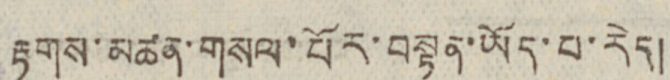རྟགས་མཚན་གསལ་པོར་བསྟན་ཡོད་པ་རེད།
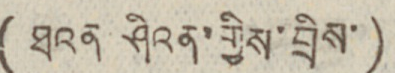(ཐའན ཤིའན་གྱིས་བྲིས་)
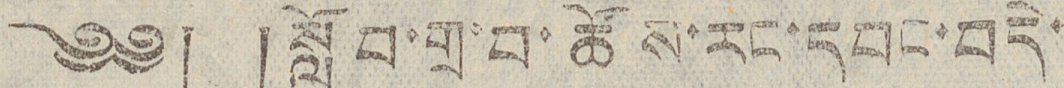༄༅། །སློབ་གྲ་བ་ཚོས་རང་དབང་བདེ་
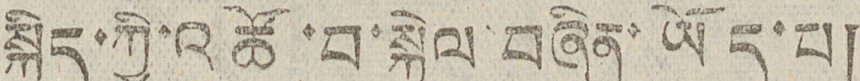སྐྱིད་ཀྱི་འཚོ་བ་སྐྱེལ་བཞིན་ཡོད་པ།
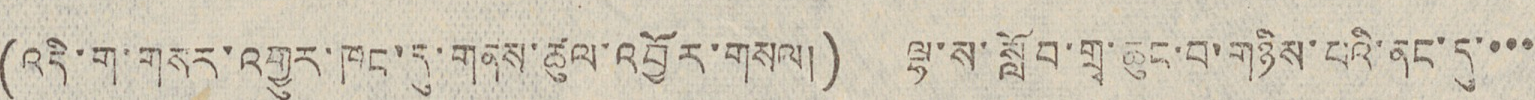(འདི་ག་གསར་འགྱུར་ཁང་དུ་གནས་ཚུལ་འབྱོར་གསལ།) ལྷ་ས་སློབ་གྲྭ་ཆུང་བ་གཉིས་པའི་ནང་དུ་་་་
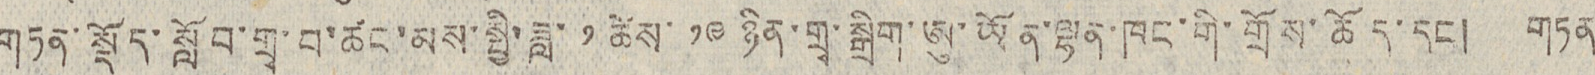གཏན་སྡོད་སློབ་གྲྭ་བ་ཚང་མས་སྤྱི་ཟླ་ ༡ ཚེས་ ༡༩ ཉིན་གྲྭ་སྒྲིག་ཨུ་ཡོན་ལྷན་ཁང་གི་གྲོས་ཆོད་དང། གཏན
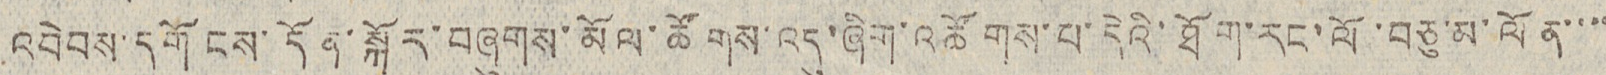འབེབས་དགོངས་དོན་སྐོར་བཞུགས་མོལ་ཚོགས་འདུག་ཞིག་འཚོགས་པ་དེའི་ཐོག་རང་ལོ་བཅུ་མ་ལོན་་་་
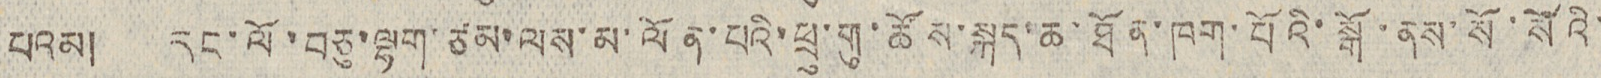པའམ། རང་ལོ་བཅུ་ལྷག་ཙམ་ལས་མ་ལོན་པའི་ཕྲུ་གུ་ཚོས་སྐད་ཆ་ཐོན་ཁག་པོའི་སྒོ་ནས་སོ་སོའི་
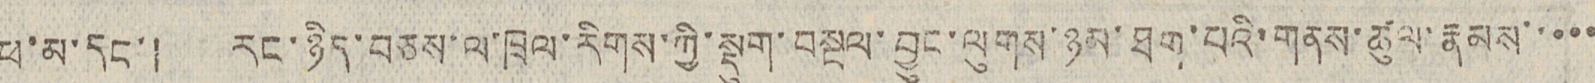ཕ་མ་དང་། རང་ཉིད་བཅས་ལ་ཁྲལ་རིགས་ཀྱི་སྡུག་བསྔལ་བྱུང་ལུགས་ཉམ་ཐག་པའི་གནས་ཚུལ་རྣམས་་་་་
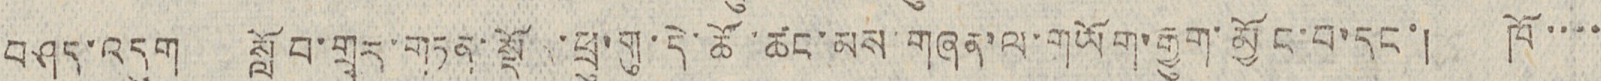བཤད་འདུག སློབ་གྲྭར་གཏན་སྡོ ་ཕྲུ་གུ་དེ་ཚོ་ཚང་མས་གཞན་ལ་གཡོག་རྒྱུག་མྱོང་བ་དང་། ཁོ་་་་
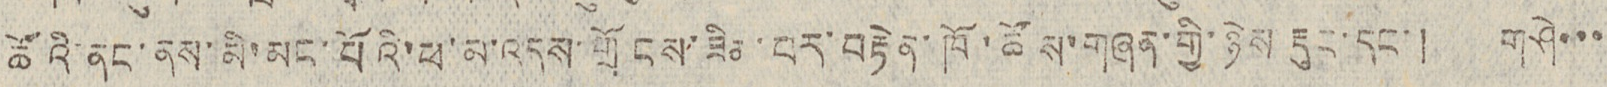ཚོའི་ནང་ནས་མི་མང་པོའི་ཕ་མ་འདས་གྲོངས་ཟིན་པར་བརྟེན་ཁོ་ཚོས་གཞན་གྱི་ཉེས རྡུང་དང་། གཤེ་་་
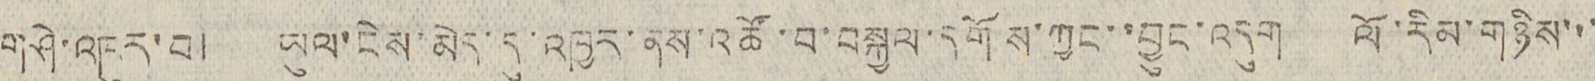གཤེ་འཁུར་བ། ཡུལ་ངེས་མེད་དུ་འཁྱར་ནས་འཚོ་བ་བསྐྱལ་དགོས་ཀྱང་་བྱུང་འདུག ལོ་རིམ་གཉིས་་་
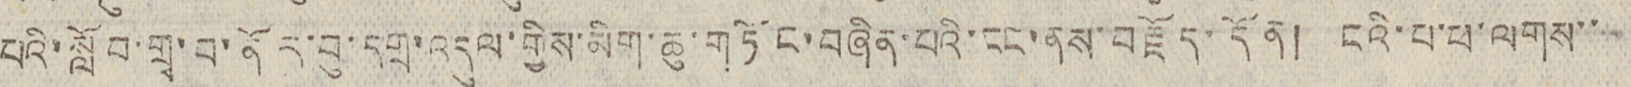པའི་སློབ་གྲྭ་བ་ནོར་བུ་དགྲ་འདུལ་གྱིས་མིག་ཆུ་གཏོང་བཞིན་པའི་ངང་ནས་བརྗོད་དོན། ངའི་པ་ཕ་ལགས་་
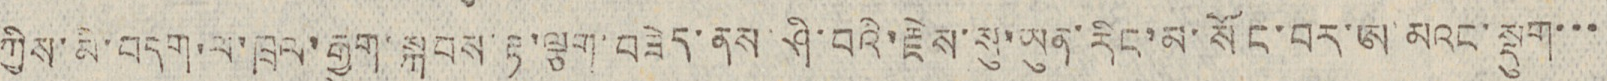ཀྱིས་མི་བདག་ལ་ཁྲལ་རྒྱུག་སྐབས་རྟ་ལྕག་བཟེད་ནས་ཤི་བའི་རྗེས་སུ་ཡུན་རིང་མ་སོང་བར་ཨ་མའང་སྡུག་་་
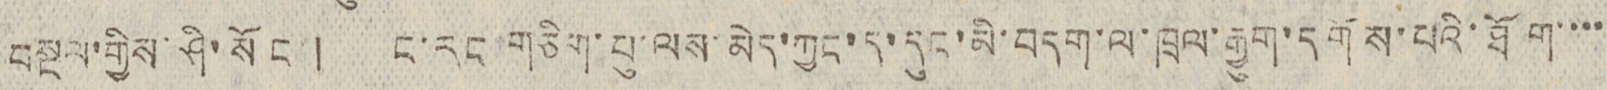བསྔལ་གྱིས་ཤི་སོང་། ང་རང་གཅིག་པུ་ལས་མེད་ཀྱང་ད་དུང་མི་བདག་ལ་ཁྲལ་རྒྱུག་དགོས་པའི་ཐོག་་་་
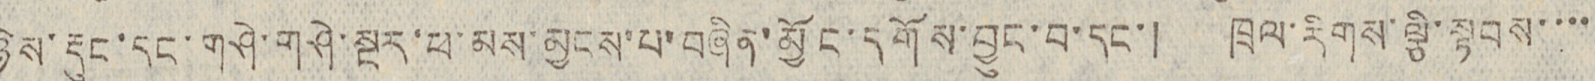ཉེས་རྡུང་དང་གཤེ་གཤེ་སྔར་ཕ་མས་མྱང་པ་བཞིན་མྱོང་དགོས་བྱུང་བ་དང་། ཁྲལ་རིགས་ལྕི་སྟབས་་་་
